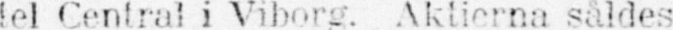tel Central i Viborg. Aktierna såldes
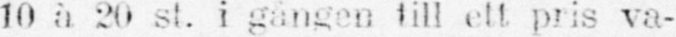10 à 20 st. i gången till ett pris va-
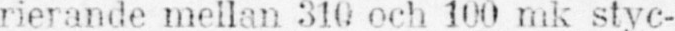rierande mellan 310 och 100 mk styc-
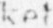ket.
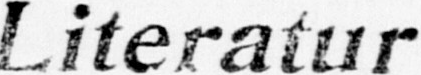Literatur
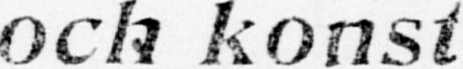och konst
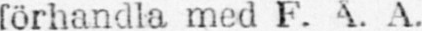förhandla med F. Å. A.
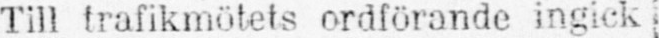Till trafikmötets ordförande ingick
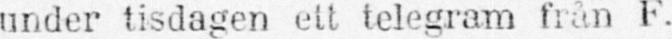under tisdagen ett telegram från F.
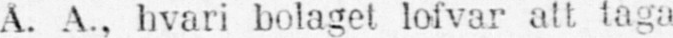Å. A., hvari bolaget lofvar att taga
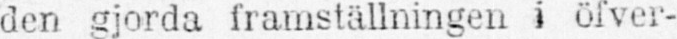den gjorda framställningen i öfver-
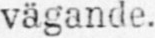vägande.
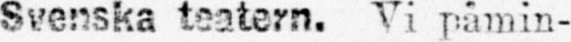— Svenska teatern. Vi påmin-
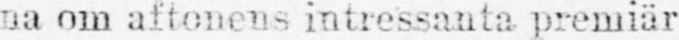na om aftonens intressanta premiär
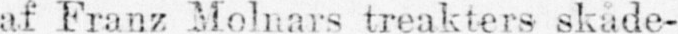af Franz Molnars treakters skåde-
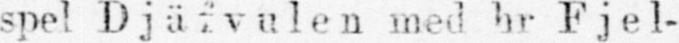spel Djäfvulen med hr Fjel-
